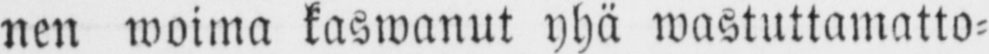nen woima kaswanut yhä wastuttamatto-
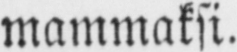mammaksi.
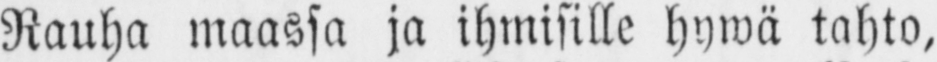Rauha maassa ja ihmisille hywä tahto,
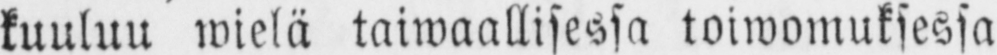kuuluu wielä taiwaallisessa toiwomuksessa
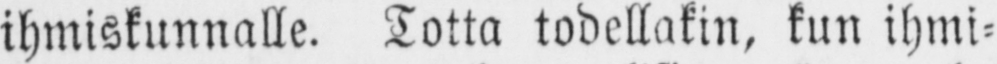ihmiskunnalle. Totta todellakin, kun ihmi-
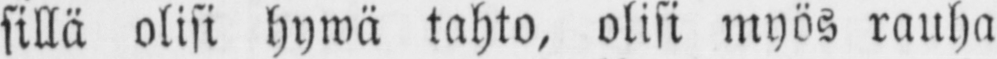sillä olisi hywä tahto, olisi myös rauha
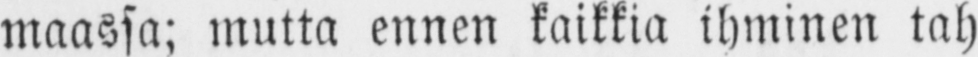maassa; mutta ennen kaikkia ihminen tah
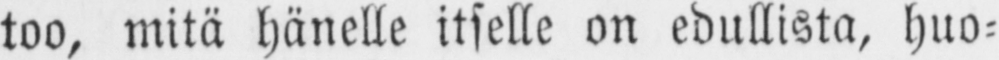too, mitä hänelle itselle on edullista, huo-
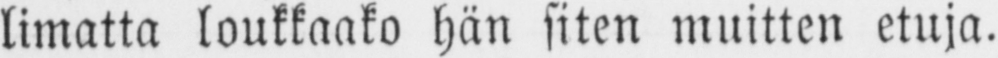limatta loukkaako hän siten muitten etuja.
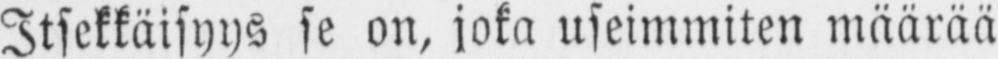Itsekkäisyys se on, joka useimmiten määrää
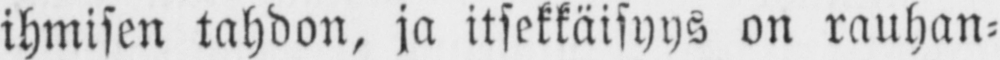ihmisen tahdon, ja itsekkäisyys on rauhan-
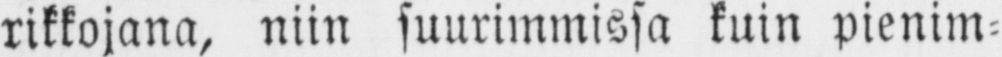rikkojana, niin suurimmissa kuin pienim-
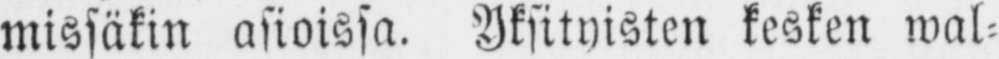missäkin asioissa, Yksityisten kesken wal-
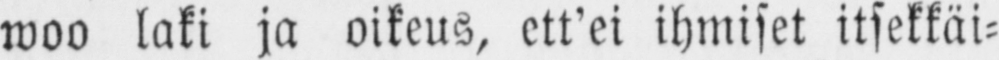woo laki ja oikeus, ett'ei ihmiset itsekkäi-
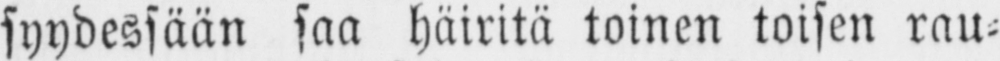syydessään saa häiritä toinen toisen rau-
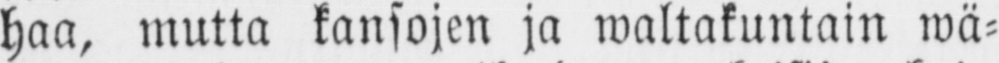haa, mutta kansojen ja waltakuntain wä-
